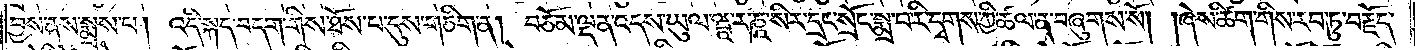བྱས་ནས་སྨྲས་པ། འདི་སྐད་བདག་གིས་ཐོས་པ་དུས་གཅིག་ན། བཅོམ་ལྡན་འདས་ཡུལ་ཝཱ་ར་ཎཱ་སིར་དྲང་སྲོང་སྨྲ་བ་རི་དྭགས་ཀྱི་ཚལ་ན་བཞུགས་སོ། །ཞེས་ཚིག་གིས་རབ་ཏུ་བརྗོད་
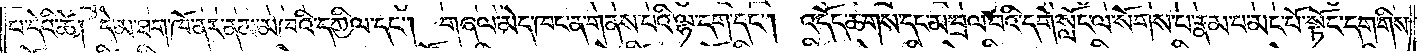པ་དེའི་ཚེ། དེ་མ་ཐག་ཁོ་ནར་ནམ་མཁའི་དཀྱིལ་དང༌། གཞལ་མེད་ཁང་ན་གནས་པའི་ལྷ་དག་དང༌། འདོད་ཆགས་དང་མ་བྲལ་བའི་དགེ་སློང་ལ་སོགས་པ་རྣམ་པ་མང་པོ་སྟོང་དག་གིས་
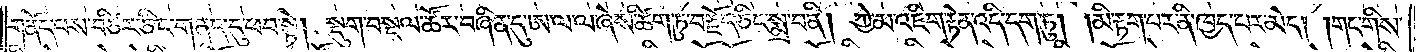གནོད་པས་བཙིར་ཅིང་གནད་དུ་ཕབ་སྟེ། སྡུག་བསྔལ་ཚོར་བཞིན་དུ་ཨ་ལ་ལ་ཞེས་ཚིག་ཏུ་བརྗོད་ཅིང་སྨྲ་བ་ནི། ཀྱེ་མ་འཇིག་རྟེན་འདི་དག་ཏུ། །མི་རྟག་པར་ནི་ཁྱད་པར་མེད། །གང་གིས་
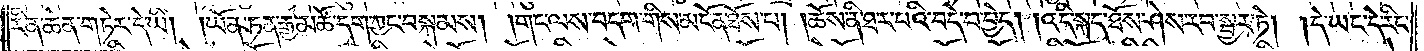རིན་ཆེན་གཏེར་དེ་ཡི། །ཡོན་ཏན་རྒྱ་མཚོ་དག་ཀྱང་བསྐམས། །གང་ལས་བདག་གིས་མངོན་ཐོས་པ། །ཆོས་ནི་ཐར་པའི་བདེ་བ་བྱེད། །འདི་སྐད་ཐོས་ཤེས་རབ་སྦྱར་ཏེ། །དེ་ཡང་དེ་རིང་
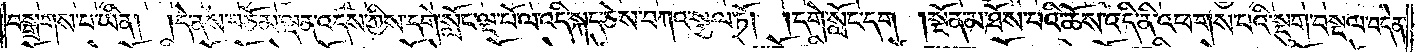བསྒྲགས་པ་ཡིན། །དེ་ནས་བཅོམ་ལྡན་འདས་ཀྱིས་དགེ་སློང་ལྔ་པོ་ལ་འདི་སྐད་ཅེས་བཀའ་སྩལ་ཏོ། །དགེ་སློང་དག །སྔོན་མ་ཐོས་པའི་ཆོས་འདི་ནི་འཕགས་པའི་སྡུག་བསྔལ་བདེན་
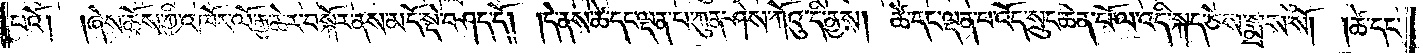པའོ། །ཞེས་ཆོས་ཀྱི་འཁོར་ལོ་རྒྱ་ཆེར་བསྐོར་ནས་མདོ་སྡེ་བཤད་དོ། །དེ་ནས་ཚེ་དང་ལྡན་པ་ཀུན་ཤེས་ཀོའུ་དི་ནྱས། ཚེ་དང་ལྡན་པ་འོད་སྲུང་ཆེན་པོ་ལ་འདི་སྐད་ཅེས་སྨྲས་སོ། །ཚེ་དང་
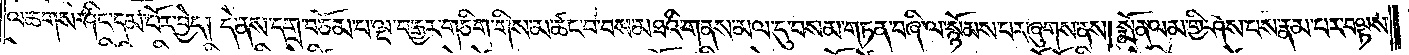ལ་ཆགས་ཤིང་དམ་པོར་བྱེད། དེ་ནས་དགྲ་བཅོམ་པ་ལྔ་བརྒྱར་གཅིག་གིས་མ་ཚང་བ་བས་མཐའི་གནས་མལ་དུ་བསམ་གཏན་བཞི་ལ་སྙོམས་པར་ཞུགས་ནས། སྨོན་ལམ་གྱི་ཤེས་པས་རྣམ་པར་བལྟས་
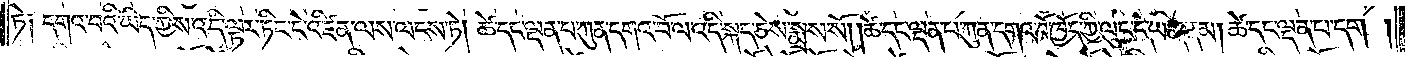ཏེ༑ དགའ་བའི་ཡིད་ཀྱིས་འདི་ལྟར་ཏིང་ངེ་འཛིན་ལས་ལངས་ཏེ། ཚེ་དང་ལྡན་པ་ཀུན་དགའ་བོ་ལ་འདི་སྐད་ཅེས་སྨྲས་སོ། །ཚེ་དང་ལྡན་པ་ཀུན་དགའ་བོ་ཁྱོད་ཀྱི་ལུང་དེ་ཡིན་ནམ། ཚེ་དང་ལྡན་པ་དག །
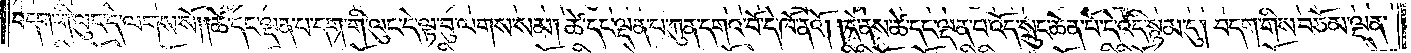བདག་གི་ལུང་དེ་ལགས་སོ། །ཚེ་དང་ལྡན་པ་དག་གི་ལུང་དེ་ལྟ་བུ་ལགས་སམ། ཚེ་དང་ལྡན་པ་ཀུན་དགའ་བོ་དེ་ཁོ་ནའོ། །དེ་ནས་ཚེ་དང་ལྡན་པ་འོད་སྲུང་ཆེན་པོ་དེ་འདི་སྙམ་དུ། བདག་གིས་བཅོམ་ལྡན་
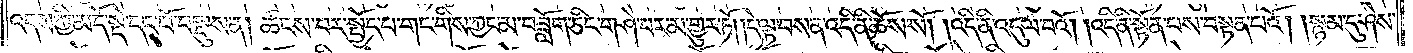འདས་ཀྱི་མདོ་སྡེ་དང་པོ་བསྡུས་ན། ཚངས་པར་སྤྱོད་པ་གང་གིས་ཀྱང་མ་བཟློག་ཅིང་གཤེ་བར་མ་གྱུར་ཏོ། །དེ་ལྟ་བས་ན་འདི་ནི་ཆོས་སོ། །འདི་ནི་འདུལ་བའོ། །འདི་ནི་སྟོན་པས་བསྟན་པའོ། །སྙམ་དུ་ཤེས་
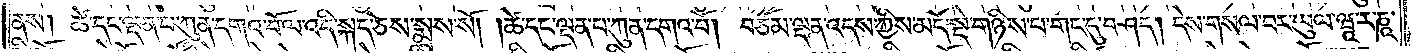ནས། ཚེ་དང་ལྡན་པ་ཀུན་དགའ་བོ་ལ་འདི་སྐད་ཅེས་སྨྲས་སོ། །ཚེ་དང་ལྡན་པ་ཀུན་དགའ་བོ། བཅོམ་ལྡན་འདས་ཀྱིས་མདོ་སྡེ་གཉིས་པ་གང་དུ་བཤད། དེས་གསལ་བར་ཡུལ་ཝཱ་ར་ཎཱ་
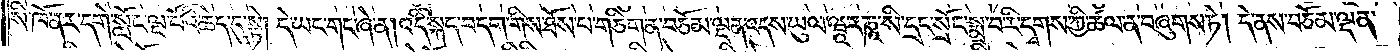སི་ཁོ་ནར་དགེ་སློང་ལྔ་པོའི་ཆེད་དུ་སྟེ། དེ་ཡང་གང་ཞེ་ན། འདི་སྐད་བདག་གིས་ཐོས་པ་གཅིག་ན་བཅོམ་ལྡན་འདས་ཡུལ་ཝཱ་ར་ཎཱ་སི་དྲང་སྲོང་སྨྲ་བ་རི་དྭགས་ཀྱི་ཚལ་ན་བཞུགས་ཏེ། དེ་ནས་བཅོམ་ལྡན་
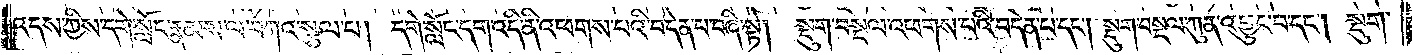འདས་ཀྱིས་དགེ་སློང་རྣམས་ལ་བཀའ་སྩལ་པ། དགེ་སློང་དག་འདི་ནི་འཕགས་པའི་བདེན་པ་བཞི་སྟེ། སྡུག་བསྔལ་འཕགས་པའི་བདེན་པ་དང༌། སྡུག་བསྔལ་ཀུན་འབྱུང་བ་དང༌། སྡུག་
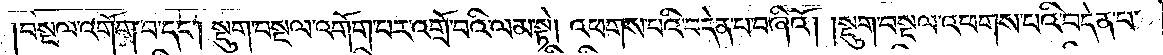།བསྔལ་འགོག་བ་དང༌། སྡུག་བསྔལ་འགོག་པར་འགྲོ་བའི་ལམ་སྟེ། འཕགས་པའི་བདེན་པ་བཞིའོ། །སྡུག་བསྔལ་འཕགས་པའི་བདེན་པ་
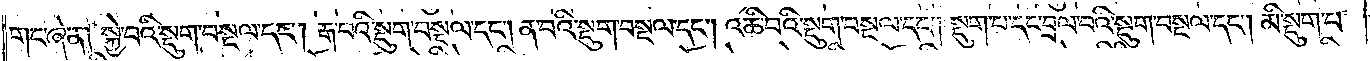གང་ཞེ་ན། སྐྱེ་བའི་སྡུག་བསྔལ་དང༌། རྒ་བའི་སྡུག་བསྔལ་དང༌། ན་བའི་སྡུག་བསྔལ་དང༌། འཆི་བའི་སྡུག་བསྔལ་དང༌། སྡུག་པ་དང་བྲལ་བའི་སྡུག་བསྔལ་དང༌། མི་སྡུག་པ་
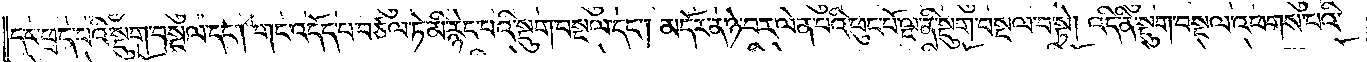དང་ཕྲད་པའི་སྡུག་བསྔལ་དང༌། གང་འདོད་པ་བཙལ་ཏེ་མི་རྙེད་པའི་སྡུག་བསྔལ་དང༌། མདོར་ན་ཉེ་བར་ལེན་པའི་ཕུང་པོ་ལྔ་ནི་སྡུག་བསྔལ་བ་སྟེ། འདི་ནི་སྡུག་བསྔལ་འཕགས་པའི་
